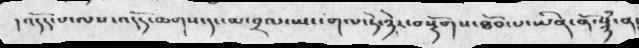། འདོད་པ་ལས་འདོད་ཆགས་དང་མ་བྲལ་ཡང་གལ་ཏེ་ཉེར་བསྟོགས་ཐོབ་པ་ཡིན་ནོ་སྙཾ་ན་
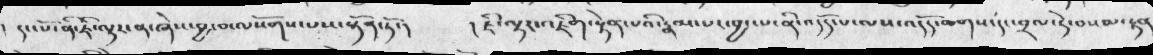དང་པོ་ནི་ཇི་ལྟར་ན་ཞེས་བྱ་བ་ལསོགས་པས་སྟོན་ཏོ་།  ། ཇི་ལྟར་འཇིག་རྟེན་པའི་རྣམ་པར་བྱང་པ་ནི་འདོད་པ་ལས་འདོད་ཆགས་དང་བྲལ་དེ་བསམ་རྟན
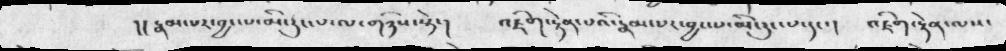།། རྣམ་པར་བྱང་པ་མི་རུང་པ་ལ་གཉིས་སྟེ་།  འཇིག་རྟེན་པའི་རྣམ་པར་བྱང་པ་མི་རུང་པ་དང་།  འཇིག་རྟེན་ལས་
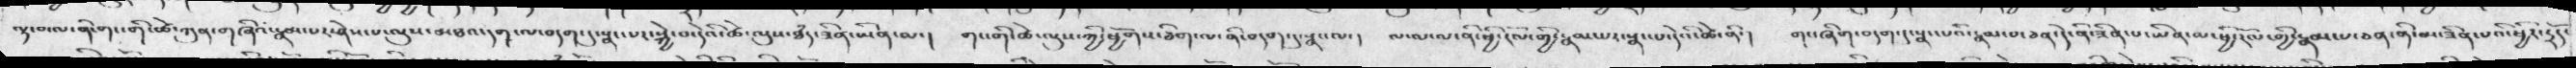ལྟ་བ་ལ་ནི་གང་གི་ཚེ་ཀུན་གཞིའ་རྣམ་པར་ཤེས་པ་ལུས་མཐའ་དག་ལ་བདག་དུ་སྣང་པར་སྐྱེ་བ་དེའི་ཚེ་ལུས་ཐཾད་ཟིན་ཡིན་ལ་།   གང་གི་ཚེ་ལུས་ཀྱི་ཕྱོགས་ཅིག་ལ་ནི་བདག་དུ་སྣང་ལ་།    ལ་ལ་ལ་ནི་ཕྱི་རོལ་གྱི་རྣམ་པར་སྣང་པ་དེའི་ཚེ་ནི་།   གང་ཞིག་བདག་དུ་སྣང་པའི་རྣམ་པ་ཅན་དེ་ནི་ཟིན་པ་ཡིན་ལ་ཕྱི་རོལ་གྱི་རྣམ་པ་ཅན་ནི་མ་ཟིན་པའི་ཕྱིར་དྲོད་
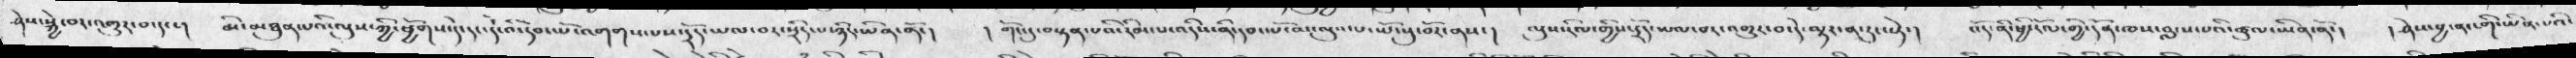ཤེས་སྐྱེ་བར་འགྱུར་བ་དང་།  མི་མཐུན་པའི་ལུས་ཀྱི་ཕྱོགས་དེ་དང་དེ་འི་དབང་པོ་འགགས་པས་དྲོད་ཡལ་བར་སྲིད་པ་ཉིདཡིན་ནོ་།  ། གོང་དུ་བསྟན་པའི་རིམ་པ་འདིས་ནི་དབང་པོ་མ་ལུས་པ་ཡོངསུ་བོར་ནས་།  ལུས་རིལ་གྱིས་དྲོད་ཡལ་བར་འགྱུར་བ་དེ་ལྟར་ན་རུང་སྟེ་།  བོད་ནི་ཕྱི་རོལ་གྱི་དོན་ཁས་བླངས་པའི་ཚུལ་ཡིན་ནོ་།   ། ཤེས་བྱ་ན་ངགི་ཡིན་པའི་
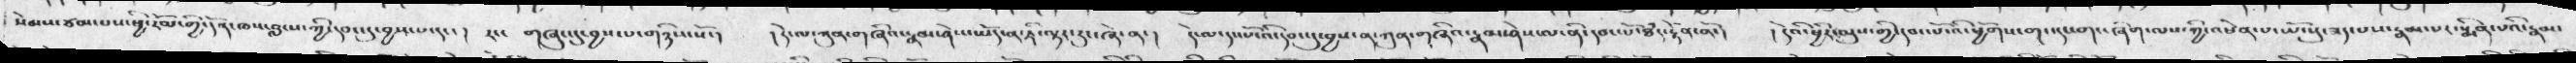སེམས་ཙམ་པས་ཕྱི་རོལ་གྱི་དོན་ཁས་བླངས་ཀྱི་དབང་དུ་བྱས་པ་དང་།  རང་ གཞུང་དུ་བྱས་པ་གཉིས་སོ་།  ། དེ་ལ་ཀུན་གཞིའ་རྣམ་ཤེས་ཡོད་ན་ཇི་ལྟར་རུང་ཞེ་ན་།  དེ་ལ་དང་པོ་འི་དབང་དུ་བྱས་ན་ཀུན་གཞིའ་རྣམ་ཤེས་ལ་ནི་དབང་པོ་ཐཾད་རྟེན་ནོ་།  ། དེའི་ཕྱིར་ལུས་ཀྱི་དབང་པོ་འི་ཕྱོགས་གང་དང་གང་ཞིག་ལས་ཀྱི་འཕེན་པ་ཡོངསུ་ཟད་པས་རྣམ་པར་སྨིན་པའི་རྣམ་
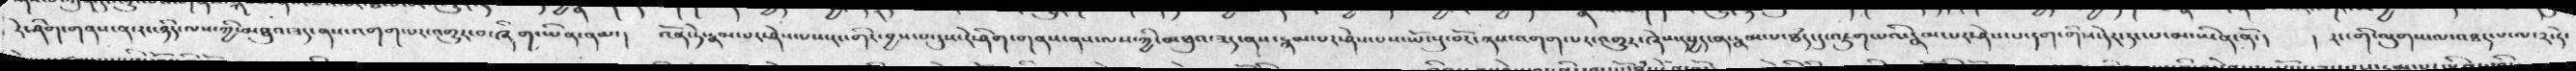རེ་ཤིག་གནས་ན་རང་ཉིད་ལས་ཀྱི་མཐའ་ཟད་ནས་འགག་པར་འགྱུར་བ་ཞིག་ཡིན་ནམ་།  འོན་ཏེ་རྣམ་པར་ཤེས་པས་རང་གིར་བྱས་པ་དུས་རེ་ཤིག་གནས་ནས་ལས་ཀྱི་མཐུའ་ཟད་ནས་རྙམ་པར་ཤེས་པས་ཡོངསུ་བོར་ནས་འགག་པར་འགྱུར་ཞེས་དཔྱད་ན་རྣམ་པ་ཐཾད་དུ་འཇུག་པའི་རྣམ་པར་ཤེས་པ་དག་གིས་དེར་རང་པ་མ་ཡིན་ནོ་།  ། རང་གི་ལུགས་ལ་འཐད་པ་ལ༢་ཏེ་
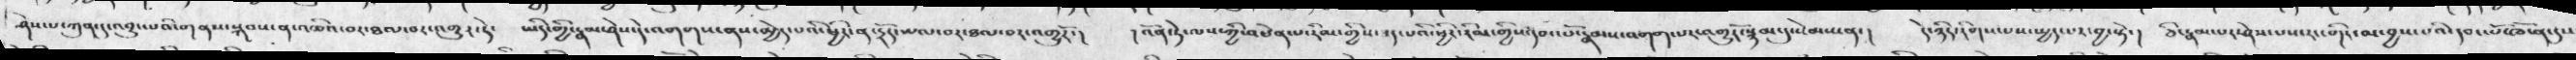ཤེས་པ་ཀུན་དུ་འབྱུང་པའི་གནས་སྐབས་ན་འཆིའ་བར་ཐལ་བར་འགྱུར་དེ་  ཡིད་གྱི་རྣམ་ཤེས་དེ་འགགས་ནས་མྱེད་པའི་ཕྱིར་ན་དྲོད་ཡལ་བར་ཐལ་བར་འགྱུརོ་།  ། འོན་ཏེ་ལས་ཀྱི་འཕེན་པ་རིམ་གྱིས་ཟད་པའི་ཕྱིར་རིམ་གྱིས་དབང་པོ་རྣམས་འགག་པར་འགྱུར་སྙོམ་དུ་སེསམ་ན་།་  དེ་ཉིད་རིགས་པས་སྤྱད་པར་བྱ་སྟེ་།  ཅི་རྣམ་པར་ཤེས་པས་རང་བདོར་་མ་བྱས་པའི་དབང་པོ་ཁོ་ན་དུས་
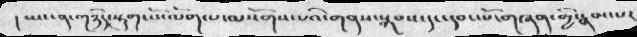། ཡང་ན་གཉིད་སྟུག་པོ་ལོག་པ་ལསོགས་པའི་གནས་སྐབས་དང་དབང་པོ་གཞན་གྱི་རྣམ་པར
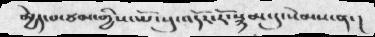མྱེད་པ་ཙམ་གྱིས་ཡོངསུ་འདོར་རོ་སྙམ་དུ་སེམས་ན་།
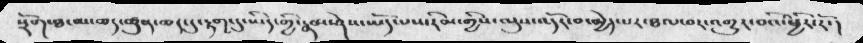སྲོག་ཐ་མ་ཆད་ཚུན་ཆད་དུ་རྟག་དུ་ཡིད་ཀྱི་རྣམ་ཤེས་ཡོད་པས་རིམ་གྱི་ལུས་འདོར་བ་མྱེད་པར་ཐལ་བར་འགྱུར་བའི་ཕྱིར་རོ་།
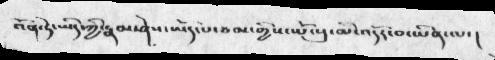འོན་ཏེ་ཡིད་ཀྱི་རྣམ་ཤེས་ཡོད་པ་ཙམ་གྱིས་ཡོངསུ་མི་འདོར་བ་ཡིན་ལ་།
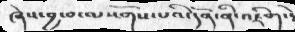ཞེས་བྱ་བ་ལསོགས་པའི་དོན་ནི་འཇིག་རྟེན་
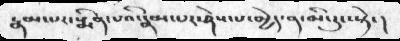རྣམ་པར་སྨིམ་པའི་རྣམ་པར་ཤེས་པ་མྱེད་ན་མི་རུང་སྟེ་ །
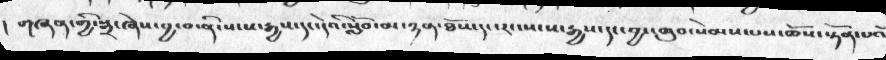།  གཞན་གྱི་སྒྲ་ཞེས་བྱ་བ་ནི་སངས་རྒྱས་དང་དེའི་སློབ་མ་ཉན་ཐོས་དང་རང་སངས་རྒྱས་དང་བྱང་ཆུབ་སེམས་པས་ཆོས་སྟོན་པའོ
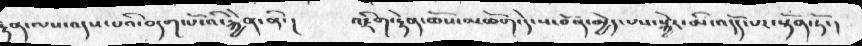རྟེན་ལས་འདས་པའི་བདག་པོ་འི་རྐྱེན་ནི་།     འཇིག་རྟེན་ཆོས་མཆོག་དེ་ས་བོན་མྱེད་པས་སྐྱེར་མི་འདོད་པར་སྟོན་ཏོ་ །
